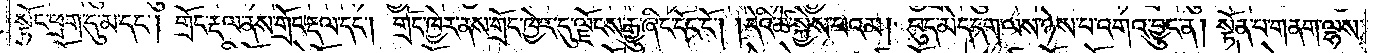སྟོང་ཕྲག་དུ་མ་དང༌། གྲོང་རྡལ་ནས་གྲོང་རྡལ་དང༌། གྲོང་ཁྱེར་ནས་གྲོང་ཁྱེར་དུ་ལྗོངས་རྒྱུ་ཞིང་དོང་ངོ༌། །དེའི་ཚེ་སྐྱེ་པའམ། བུད་མེད་དག་ལས་ཉེས་པ་འགའ་བྱུང་ན། སྟོན་པ་གནག་ལྷས་
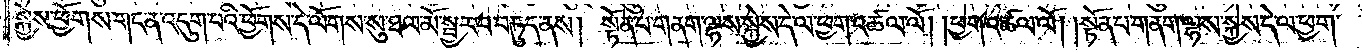སྐྱེས་ཕྱོགས་གང་ན་འདུག་པའི་ཕྱོགས་དེ་ལོགས་སུ་ཐལ་མོ་སྦྱར་བ་བཏུད་ནས། སྟོན་པ་གནག་ལྷས་སྐྱེས་དེ་ལ་ཕྱག་འཚལ་ལོ། །ཕྱག་འཚལ་ལོ། །སྟོན་པ་གནག་ལྷས་སྐྱེས་དེ་ལ་ཕྱག་
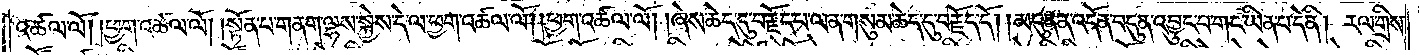འཚལ་ལོ། །ཕྱག་འཚལ་ལོ། །སྟོན་པ་གནག་ལྷས་སྐྱེས་དེ་ལ་ཕྱག་འཚལ་ལོ། །ཕྱག་འཚལ་ལོ། །ཞེས་ཆེད་དུ་བརྗོད་པ་ལན་གསུམ་ཆེད་དུ་བརྗོད་དོ། །མདུན་ན་འདོན་བདུན་འབྱུང་བ་གང་ཡིན་པ་དེ་ནི། རལ་གྲིས་
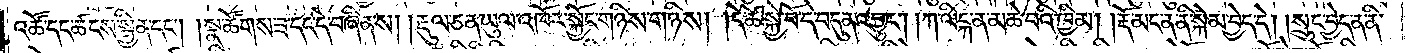འཚོ་དང་ཚངས་སྦྱིན་དང༌། །སྣ་ཚོགས་ཟ་དང་དེ་བཞིན་ས། །རྡུལ་ཅན་ཡུལ་འཁོར་སྐྱོང་གཉིས་གཉིས། །དེ་ཚེ་སྐྱེ་བོ་དེ་བདུན་འབྱུང༌། །ཀ་ལིངྐ་ན་མཆེ་བའི་ཁྱིམ། །རྡོ་མང་ན་ནི་སྐེམ་བྱེད་དེ། །སྲུང་བྱེད་ན་ནི་
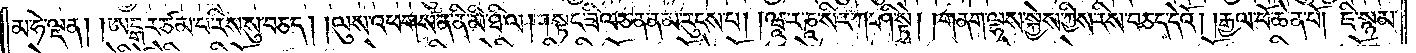མ་ཧེ་ལྡན། །ཨངྒར་ཙམ་པ་རིས་སུ་བཅད། །ལུས་འཕགས་ན་ནི་མི་ཐི་ལ། །སྟང་ཟིལ་ཅན་ན་མ་རུངས་པ། །ཝཱ་ར་ཎཱ་སིར་ཀ་ཤི་སྟེ། །གནག་ལྷས་སྐྱེས་ཀྱིས་རིས་བཅད་དེའོ། །རྒྱལ་པོ་ཆེན་པོ། ཇི་སྙམ་
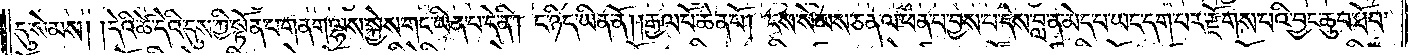དུ་སེམས། །དེའི་ཚེ་དེའི་དུས་ཀྱི་སྟོན་པ་གནག་ལྷས་སྐྱེས་གང་ཡིན་པ་དེ་ནི། ང་ཉིད་ཡིན་ནོ། །རྒྱལ་པོ་ཆེན་པོ། ངས་སེམས་ཅན་ལ་ཕན་པ་བྱས་པ་དེས་བླ་ན་མེད་པ་ཡང་དག་པར་རྫོགས་པའི་བྱང་ཆུབ་ཐོབ་
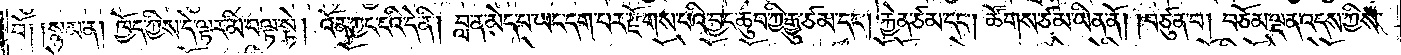བོ། །སྙམ་ན། ཁྱོད་ཀྱིས་དེ་ལྟར་མི་བལྟ་སྟེ། འོན་ཀྱང་ངའི་དེ་ནི། བླ་ན་མེད་པ་ཡང་དག་པར་རྫོགས་པའི་བྱང་ཆུབ་ཀྱི་རྒྱུ་ཙམ་དང༌། རྐྱེན་ཙམ་དང༌། ཚོགས་ཙམ་ཡིན་ནོ། །བཙུན་པ། བཅོམ་ལྡན་འདས་ཀྱིས་
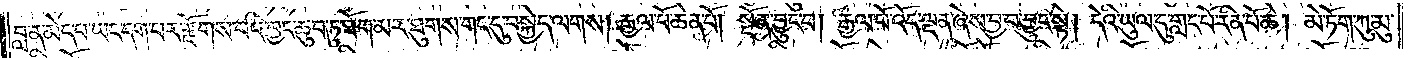བླ་ན་མེད་པ་ཡང་དག་པར་རྫོགས་པའི་བྱང་ཆུབ་ཏུ་ཐོག་མར་ཐུགས་གང་དུ་བསྐྱེད་ལགས། རྒྱལ་པོ་ཆེན་པོ། སྔོན་བྱུང་བ། རྒྱལ་པོ་འོད་ལྡན་ཞེས་བྱ་བ་བྱུང་སྟེ། དེའི་ཡུལ་དུ་གླང་པོ་རིན་པོ་ཆེ། མེ་ཏོག་ཀུ་མུ་
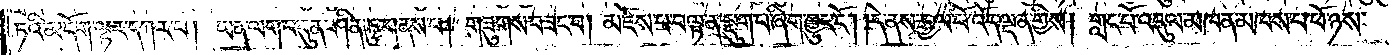ཏའི་མདོག་ལྟར་དཀར་བ། ཡན་ལག་བདུན་ཤིན་ཏུ་གནས་པ། གཟུགས་བཟང་བ། མཛེས་པ་བལྟ་ན་སྡུག་པ་ཞིག་བྱུང་ངོ༌། །དེ་ནས་རྒྱལ་པོ་འོད་ལྡན་གྱིས། གླང་པོ་འདུལ་མཁན་མཁས་པ་ཕོ་ཉས་
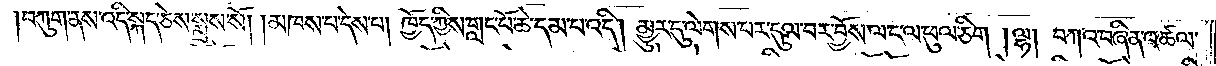བཀུག་ནས་འདི་སྐད་ཅེས་སྨྲས་སོ། །མཁས་པ་དེས་པ། ཁྱོད་ཀྱིས་གླང་པོ་ཆེ་དམ་པ་འདི། མྱུར་དུ་ལེགས་པར་དུལ་བར་བྱོས་ལ་ང་ལ་ཕུལ་ཅིག །ལྷ། བཀའ་བཞིན་འཚལ་
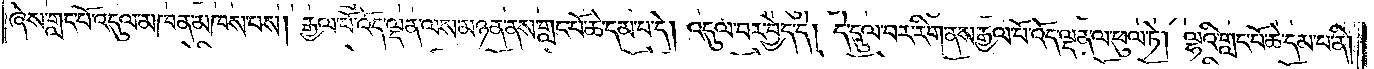ཞེས་གླང་པོ་འདུལ་མཁན་མཁས་པས། རྒྱལ་པོ་འོད་ལྡན་ལས་མཉན་ནས་གླང་པོ་ཆེ་དམ་པ་དེ། འདུལ་བར་བྱེད་དེ། དེ་དུལ་བར་རིག་ནས་རྒྱལ་པོ་འོད་ལྡན་ལ་ཕུལ་ཏེ། ལྷའི་གླང་པོ་ཆེ་དམ་པ་ནི།
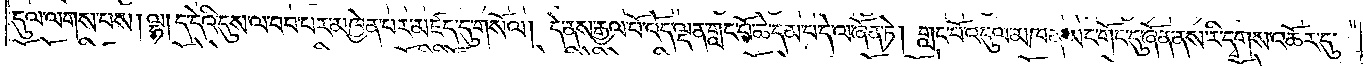དུལ་ལགས་པས། ལྷ། ད་དེའི་དུས་ལ་བབ་པར་མཁྱེན་པར་མཛད་དུ་གསོལ། །དེ་ནས་རྒྱལ་པོ་འོད་ལྡན་གླང་པོ་ཆེ་དམ་པ་དེ་ལ་ཞོན་ཏེ། གླང་པོ་འདུལ་མཁན་ཡང་གོང་དུ་ཞོན་ནས་རི་དྭགས་འཆོར་དུ་
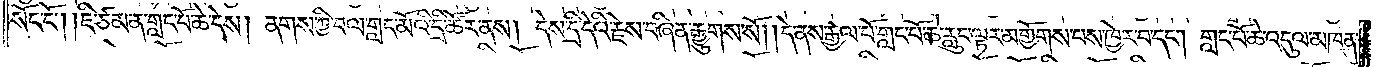སོང་ངོ༌། །ཇི་ཙམ་ན་གླང་པོ་ཆེ་དེས། ནགས་ཀྱི་བལ་གླང་མོའི་དྲི་ཚོར་ནས། དེས་དྲི་དེའི་རྗེས་བཞིན་རྒྱུགས་སོ། །དེ་ནས་རྒྱལ་པོ་གླང་པོ་ཆེ་རླུང་ལྟར་མགྱོགས་པས་ཁྱེར་བ་དང༌། གླང་པོ་ཆེ་འདུལ་མཁན་
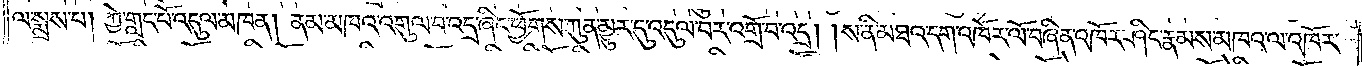ལ་སྨྲས་པ། ཀྱེ་གླང་པོ་འདུལ་མཁན། །ནམ་མཁའ་འགུལ་བ་འདྲ་ཞིང་ཕྱོགས་ཀུན་མྱུར་དུ་འདུལ་བར་འགྲོ་བ་འདྲ། ས་ནི་མཐའ་དག་འཁོར་ལོ་བཞིན་འཁོར་ཤིང་རྣམས་མཁའ་ལ་འཁོར་
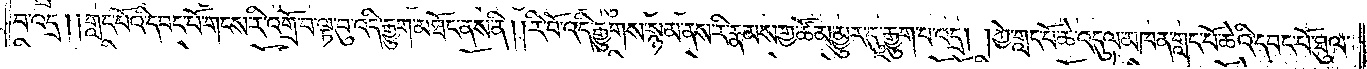བ་འདྲ། གླང་པོའི་དབང་པོ་གངས་རི་འགྲོ་བ་ལྟ་བུ་འདི་རྒྱུག་མཐོང་ནས་ནི། །རི་བོ་འདི་རྒྱུགས་སྙམ་ནས་རི་རྣམས་གྱ་ཚོམ་མྱུར་དུ་རྒྱུག་པ་འདྲ། །ཀྱེ་གླང་པོ་ཆེ་འདུལ་མཁན་གླང་པོ་ཆེའི་དབང་པོ་ཐུལ་
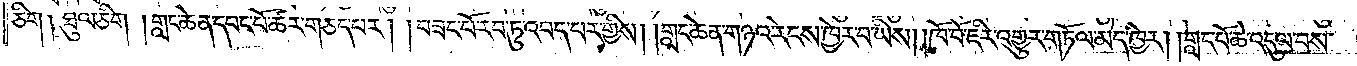ཅིག །ཐུལ་ཅིག །གླང་ཆེན་དབང་པོ་ཚར་གཅད་པར། །བཟང་པོ་རབ་ཏུ་འབད་པར་གྱིས། །གླང་ཆེན་གཉའ་རེངས་ཁྱེར་བ་ཡིས། །ཁོ་བོ་ཇིར་འགྱུར་གཏོལ་མེད་ཁྱེར། །གླང་པོ་ཆེ་འདུལ་བས་
